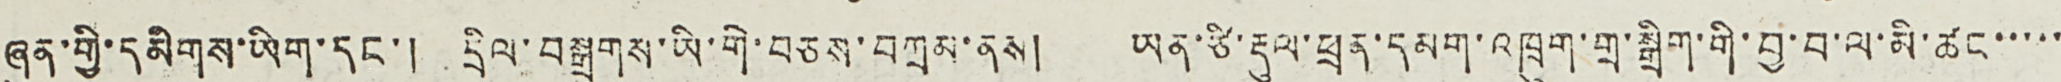ཞུན་གྱི་དམིགས་ཡིག་དང་། དྲིལ་བསྒྲགས་ཡི་གེ་བཅས་བཀྲམ་ནས། ཡན་ཙི་རྡུལ་ཕྲན་དམག་འཁྲུག་གྲ་སྒྲིག་གི་བྱ་བ་ལ་མི་ཚང་་་་་
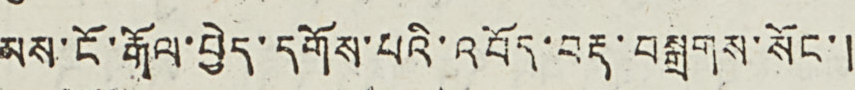མས་ངོ་རྒོལ་བྱེད་དགོས་པའི་འབོད་བརྡ་བསྒྲགས་སོང་།
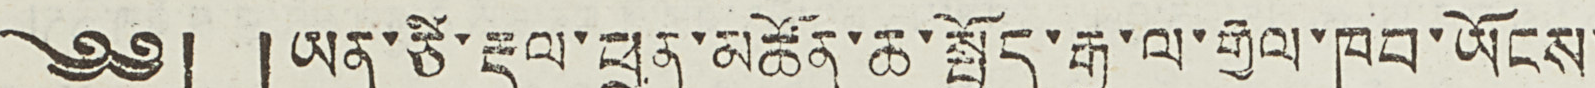༄༅། །ཡན་ཙི་རྡུལ་ཕྲན་མཚོན་ཆ་སྤྱོད་རྒྱུ་ལ་རྒྱལ་ཁབ་ཡོངས་
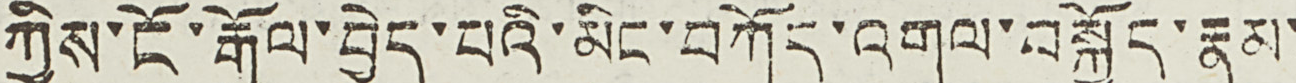ཀྱིས་ངོ་རྒོལ་བྱེད་པའི་མིང་བཀོད་འགུལ་བསྐྱོད་རྣམ་
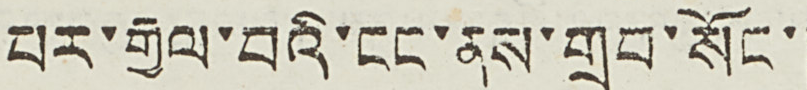པར་རྒྱལ་བའི་ངང་ནས་གྲུབ་སོང་།
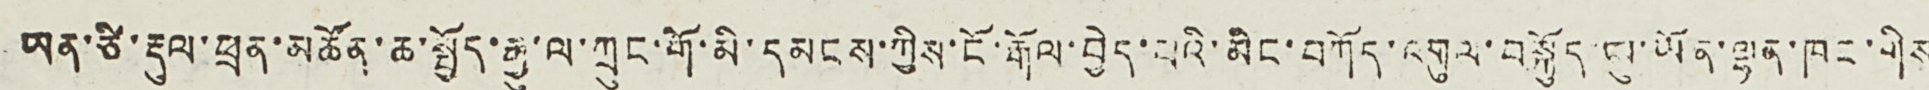ཡན་ཙི་རྡུལ་ཕྲན་མཚོན་ཆ་སྤྱོད་རྒྱུ་ལ་ཀྲུང་གོ་མི་དམངས་ཀྱིས་ངོ་རྒོལ་བྱེད་པའི་མིང་བཀོད་འགུལ་བསྐྱོད་ཨུ་ཡོན་ལྷན་ཁང་གིས
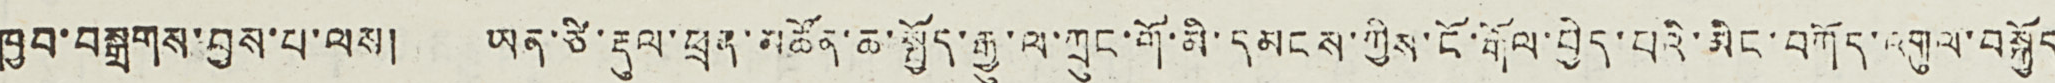ཁྱབ་བསྒྲགས་བྱས་པ་ལས། ཡན་ཙི་རྡུལ་ཕྲན་མཚོན་ཆ་སྤྱོད་རྒྱུ་ལ་ཀྲུང་གོ་མི་དམངས་ཀྱིས་ངོ་རྒོལ་བྱེད་པའི་མིང་བཀོད་འགུལ་བསྐྱོད
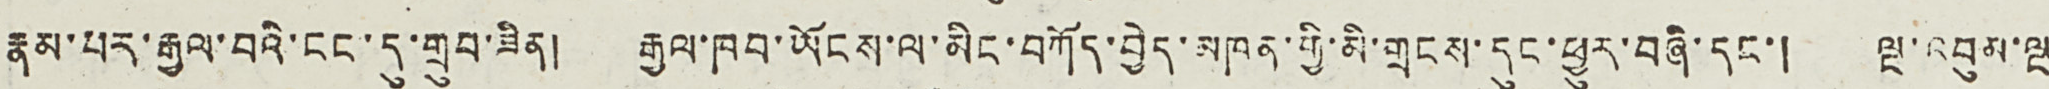རྣམ་པར་རྒྱལ་བའི་ངང་དུ་གྲུབ་ཟིན། རྒྱལ་ཁབ་ཡོངས་ལ་མིང་བཀོད་བྱེད་མཁན་གྱི་མི་གྲངས་དུང་ཕྱུར་བཞི་དང་། ལྔ་འབུམ་ལྔ་
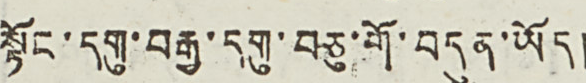སྟོང་དགུ་བརྒྱ་དགུ་བཅུ་གོ་བདུན་ཡོད།
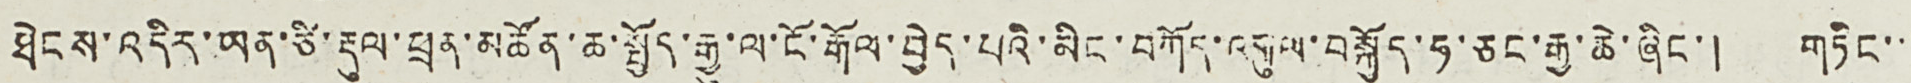ཐེངས་འདིར་ཡན་ཙི་རྡུལ་ཕྲན་མཚོན་ཆ་སྤྱོད་རྒྱུ་ལ་ངོ་རྒོལ་བྱེད་པའི་མིང་བཀོད་འགུལ་བསྐྱོད་ཧ་ཅང་རྒྱ་ཆེ་ཞིང་། གཏིང་་་
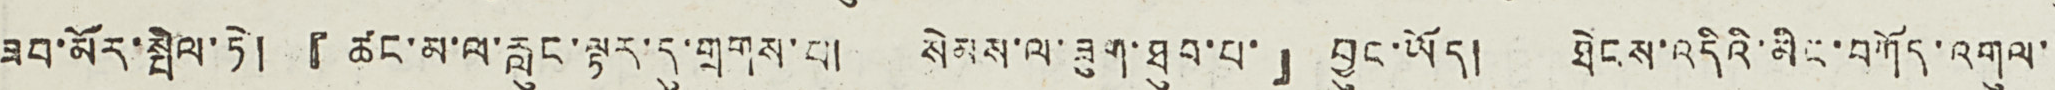ཟབ་མོར་སྤེལ་ཏེ། 『ཚང་མ་ལ་རླུང་ལྟར་དུ་གྲགས་པ། སེམས་ལ་ཟུག་ཐུབ་པ་』བྱུང་ཡོད། ཐེངས་འདིའི་མིང་བཀོད་འགུལ་་
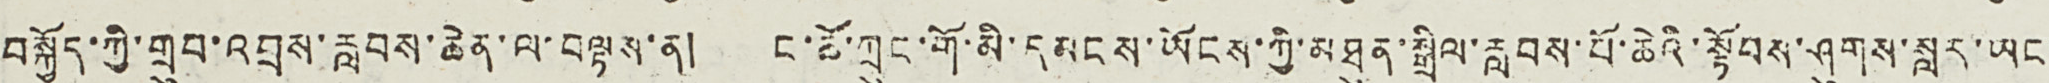བསྐྱོད་ཀྱི་གྲུབ་འབྲས་རླབས་ཆེན་ལ་བལྟས་ན། ང་ཚོ་ཀྲུང་གོ་མི་དམངས་ཡོངས་ཀྱི་མཐུན་སྒྲིལ་རླབས་པོ་ཆེའི་སྟོབས་ཤུགས་སླར་ཡང་
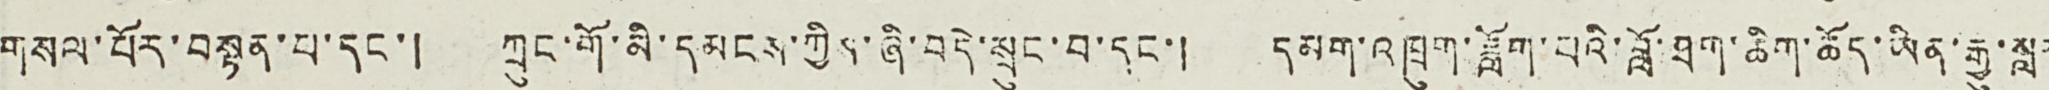གསལ་པོར་བསྟན་པ་དང་། ཀྲུང་གོ་མི་དམངས་ཀྱིས་ཞི་བདེ་སྲུང་བ་དང་། དམག་འཁྲུག་ཟློག་པའི་བློ་ཐག་ཆིག་ཆོད་ཡིན་རྒྱུ་སླར
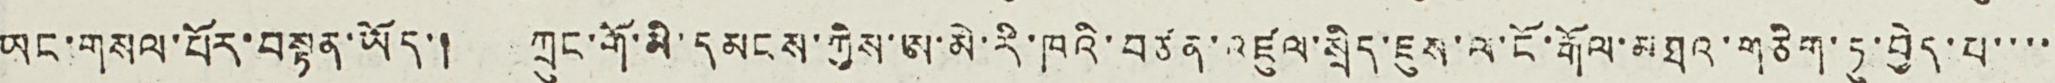ཡང་གསལ་པོར་བསྟན་ཡོད་། ཀྲུང་གོ་མི་དམངས་ཀྱིས་ཨ་མེ་རི་ཁའི་བཙན་འཛུལ་སྲིད་ཇུས་ལ་ངོ་རྒོལ་མཐའ་གཅིག་ཏུ་བྱེད་པ་་་་་
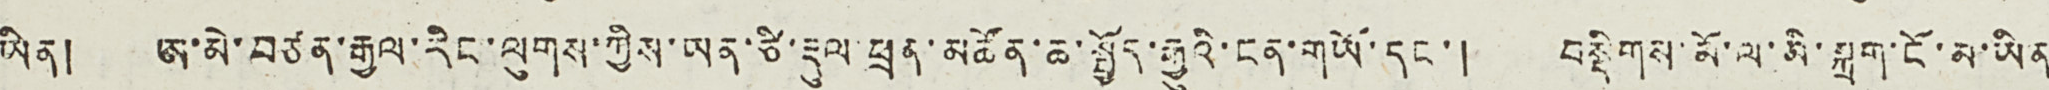ཡིན། ཨ་མེ་བཙན་རྒྱལ་རིངལ་ལུགས་ཀྱིས་ཡན་ཙི་རྡུལ ཕྲན་མཚོན་ཆ་སྤྱོད་རྒྱུའི་ངན་གཡོ་དང་། བསྡིགས་མོ་ལ་མི་སྐྲག་ངོ་མ་ཡིན།
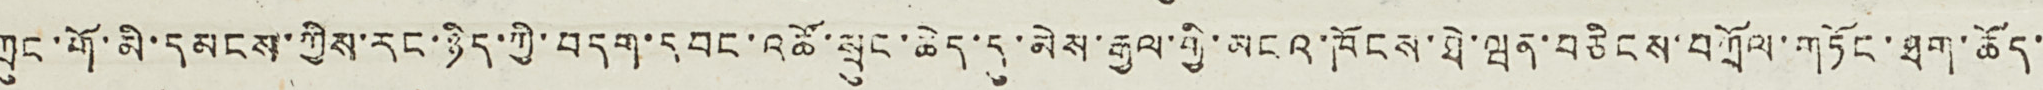ཀྲུང་གོ་མི་དམངས་ཀྱིས་རང་ཉིད་ཀྱི་བདག་དབང་འཚོ་སྲུང་ཆེད་དུ་མེས་རྒྱལ་གྱི་མངའ་ཁོངས་ཐེ་ཝན་བཅིངས་བཀྲོལ་གཏོང་ཐག་ཆོད་་
